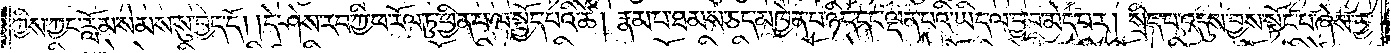ཀྱིས་ཀྱང་རློམ་སེམས་སུ་བྱེད་དོ། །དེ་ཤེས་རབ་ཀྱི་ཕ་རོལ་ཏུ་ཕྱིན་པ་ལ་སྤྱོད་པའི་ཚེ། རྣམ་པ་ཐམས་ཅད་མཁྱེན་པ་ཉིད་དང་ལྡན་པའི་ཡིད་ལ་བྱ་བ་མེད་པར། སྲིད་པ་འདུས་བྱས་སྟོང་པ་ཞེས་བྱ་
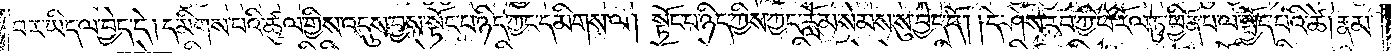བར་ཡིད་ལ་བྱེད་དེ། དམིགས་པའི་ཚུལ་གྱིས་འདུས་བྱས་སྟོང་པ་ཉིད་ཀྱང་དམིགས་ལ། སྟོང་པ་ཉིད་ཀྱིས་ཀྱང་རློམ་སེམས་སུ་བྱེད་དོ། །དེ་ཤེས་རབ་ཀྱི་ཕ་རོལ་ཏུ་ཕྱིན་པ་ལ་སྤྱོད་པའི་ཚེ། རྣམ་
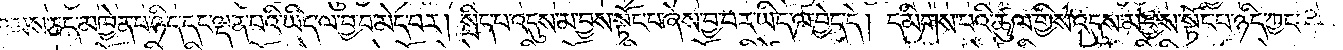པ་ཐམས་ཅད་མཁྱེན་པ་ཉིད་དང་ལྡན་པའི་ཡིད་ལ་བྱ་བ་མེད་པར། སྲིད་པ་འདུས་མ་བྱས་སྟོང་པ་ཞེས་བྱ་བར་ཡིད་ལ་བྱེད་དེ། དམིགས་པའི་ཚུལ་གྱིས་འདུས་མ་བྱས་སྟོང་པ་ཉིད་ཀྱང་
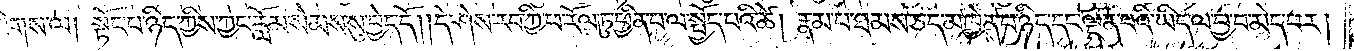དམིགས་ལ། སྟོང་པ་ཉིད་ཀྱིས་ཀྱང་རློམ་སེམས་སུ་བྱེད་དོ། །དེ་ཤེས་རབ་ཀྱི་ཕ་རོལ་ཏུ་ཕྱིན་པ་ལ་སྤྱོད་པའི་ཚེ། རྣམ་པ་ཐམས་ཅད་མཁྱེན་པ་ཉིད་དང་ལྡན་པའི་ཡིད་ལ་བྱ་བ་མེད་པར།
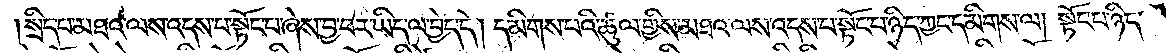སྲིད་པ་མཐའ་ལས་འདས་པ་སྟོང་པ་ཞེས་བྱ་བར་ཡིད་ལ་བྱེད་དེ། དམིགས་པའི་ཚུལ་གྱིས་མཐའ་ལས་འདས་པ་སྟོང་པ་ཉིད་ཀྱང་དམིགས་ལ། སྟོང་པ་ཉིད་
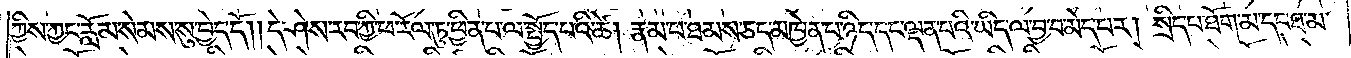ཀྱིས་ཀྱང་རློམ་སེམས་སུ་བྱེད་དོ། །དེ་ཤེས་རབ་ཀྱི་ཕ་རོལ་ཏུ་ཕྱིན་པ་ལ་སྤྱོད་པའི་ཚེ། རྣམ་པ་ཐམས་ཅད་མཁྱེན་པ་ཉིད་དང་ལྡན་པའི་ཡིད་ལ་བྱ་བ་མེད་པར། སྲིད་པ་ཐོག་མ་དང་ཐ་མ་
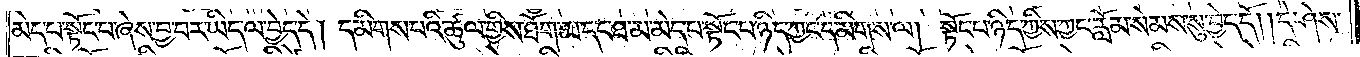མེད་པ་སྟོང་པ་ཞེས་བྱ་བར་ཡིད་ལ་བྱེད་དེ། དམིགས་པའི་ཚུལ་གྱིས་ཐོག་མ་དང་ཐ་མ་མེད་པ་སྟོང་པ་ཉིད་ཀྱང་དམིགས་ལ། སྟོང་པ་ཉིད་ཀྱིས་ཀྱང་རློམ་སེམས་སུ་བྱེད་དོ། །དེ་ཤེས་
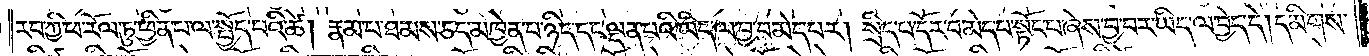རབ་ཀྱི་ཕ་རོལ་ཏུ་ཕྱིན་པ་ལ་སྤྱོད་པའི་ཚེ། རྣམ་པ་ཐམས་ཅད་མཁྱེན་པ་ཉིད་དང་ལྡན་པའི་ཡིད་ལ་བྱ་བ་མེད་པར། སྲིད་པ་དོར་བ་མེད་པ་སྟོང་པ་ཞེས་བྱ་བར་ཡིད་ལ་བྱེད་དེ། དམིགས་
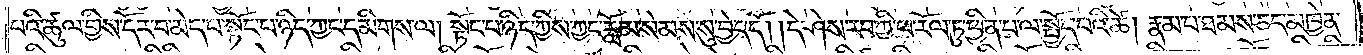པའི་ཚུལ་གྱིས་དོར་བ་མེད་པ་སྟོང་པ་ཉིད་ཀྱང་དམིགས་ལ། སྟོང་པ་ཉིད་ཀྱིས་ཀྱང་རློམ་སེམས་སུ་བྱེད་དོ། །དེ་ཤེས་རབ་ཀྱི་ཕ་རོལ་ཏུ་ཕྱིན་པ་ལ་སྤྱོད་པའི་ཚེ། རྣམ་པ་ཐམས་ཅད་མཁྱེན་
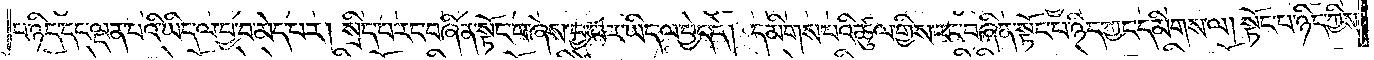པ་ཉིད་དང་ལྡན་པའི་ཡིད་ལ་བྱ་བ་མེད་པར། སྲིད་པ་རང་བཞིན་སྟོང་པ་ཞེས་བྱ་བར་ཡིད་ལ་བྱེད་དེ། དམིགས་པའི་ཚུལ་གྱིས་རང་བཞིན་སྟོང་པ་ཉིད་ཀྱང་དམིགས་ལ། སྟོང་པ་ཉིད་ཀྱིས་
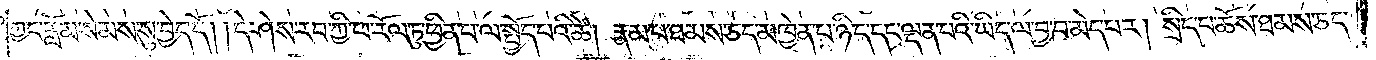ཀྱང་རློམ་སེམས་སུ་བྱེད་དོ། །དེ་ཤེས་རབ་ཀྱི་ཕ་རོལ་ཏུ་ཕྱིན་པ་ལ་སྤྱོད་པའི་ཚེ། རྣམ་པ་ཐམས་ཅད་མཁྱེན་པ་ཉིད་དང་ལྡན་པའི་ཡིད་ལ་བྱ་བ་མེད་པར། སྲིད་པ་ཆོས་ཐམས་ཅད་
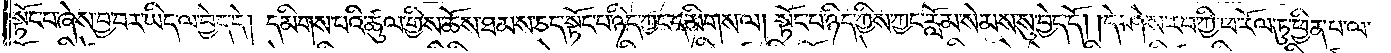སྟོང་པ་ཞེས་བྱ་བར་ཡིད་ལ་བྱེད་དེ། དམིགས་པའི་ཚུལ་གྱིས་ཆོས་ཐམས་ཅད་སྟོང་པ་ཉིད་ཀྱང་དམིགས་ལ། སྟོང་པ་ཉིད་ཀྱིས་ཀྱང་རློམ་སེམས་སུ་བྱེད་དོ། །དེ་ཤེས་རབ་ཀྱི་ཕ་རོལ་ཏུ་ཕྱིན་པ་ལ་
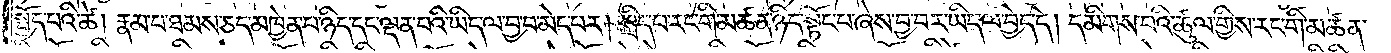སྤྱོད་པའི་ཚེ། རྣམ་པ་ཐམས་ཅད་མཁྱེན་པ་ཉིད་དང་ལྡན་པའི་ཡིད་ལ་བྱ་བ་མེད་པར། སྲིད་པ་རང་གི་མཚན་ཉིད་སྟོང་པ་ཞེས་བྱ་བར་ཡིད་ལ་བྱེད་དེ། དམིགས་པའི་ཚུལ་གྱིས་རང་གི་མཚན་
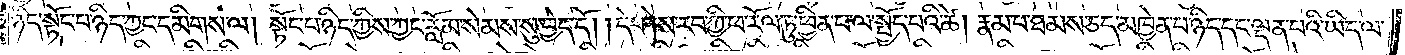ཉིད་སྟོང་པ་ཉིད་ཀྱང་དམིགས་ལ། སྟོང་པ་ཉིད་ཀྱིས་ཀྱང་རློམ་སེམས་སུ་བྱེད་དོ། །དེ་ཤེས་རབ་ཀྱི་ཕ་རོལ་ཏུ་ཕྱིན་པ་ལ་སྤྱོད་པའི་ཚེ། རྣམ་པ་ཐམས་ཅད་མཁྱེན་པ་ཉིད་དང་ལྡན་པའི་ཡིད་ལ་
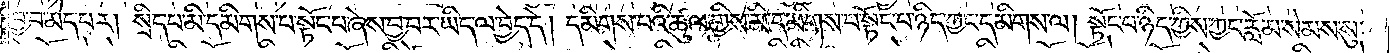བྱ་བ་མེད་པར། སྲིད་པ་མི་དམིགས་པ་སྟོང་པ་ཞེས་བྱ་བར་ཡིད་ལ་བྱེད་དེ། དམིགས་པའི་ཚུལ་གྱིས་མི་དམིགས་པ་སྟོང་པ་ཉིད་ཀྱང་དམིགས་ལ། སྟོང་པ་ཉིད་ཀྱིས་ཀྱང་རློམ་སེམས་སུ་
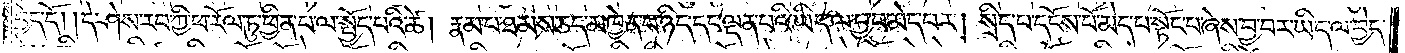བྱེད་དོ། །དེ་ཤེས་རབ་ཀྱི་ཕ་རོལ་ཏུ་ཕྱིན་པ་ལ་སྤྱོད་པའི་ཚེ། རྣམ་པ་ཐམས་ཅད་མཁྱེན་པ་ཉིད་དང་ལྡན་པའི་ཡིད་ལ་བྱ་བ་མེད་པར། སྲིད་པ་དངོས་པོ་མེད་པ་སྟོང་པ་ཞེས་བྱ་བར་ཡིད་ལ་བྱེད་
